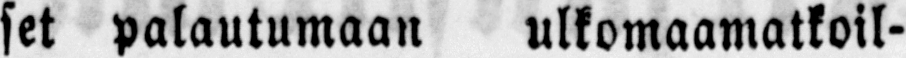set palautumaan ulkomaamatkoil-
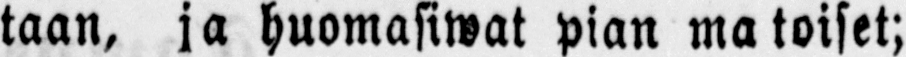taan, ja huomasiwat pian matoiset;
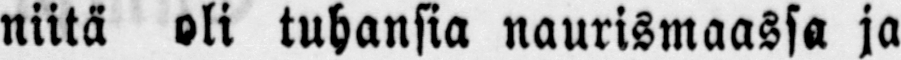niitä oli tuhansia naurismaassa ja
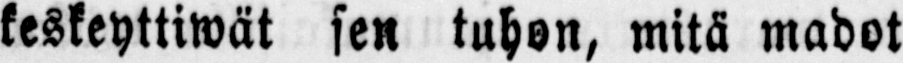keskeyttiwät sen tuhon, mitä madot
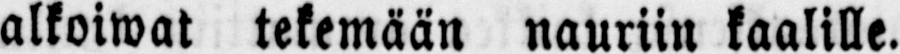alkoiwat tekemään nauriin kaalille.
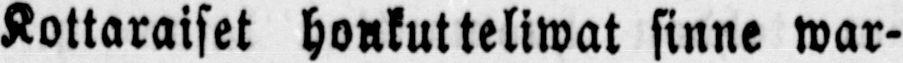Kottaraiset houkutteliwat sinne war-
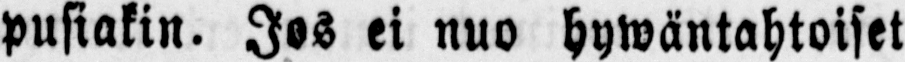pusiakin. Jos ei nuo hywäntahtoiset
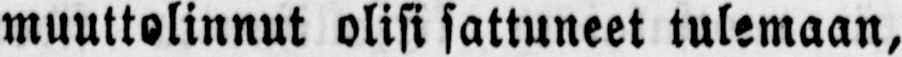muuttolinnut olisi sattuneet tulemaan,
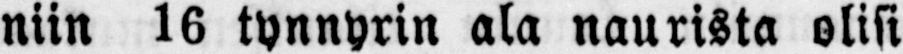niin 16 tynnyrin ala naurista olisi
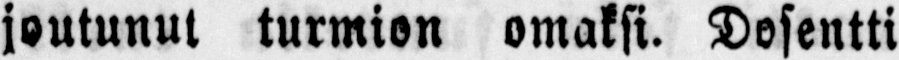joutunut turmion omaksi. Dosentti
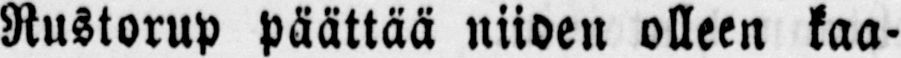Rustorup päättää niiden olleen kaa-
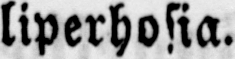liperhosia.
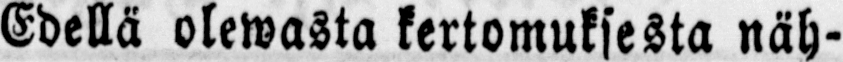Edellä olewasta kertomuksesta näh-
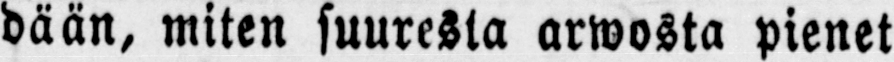dään, miten suuresta arwosta pienet
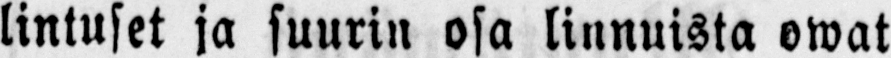lintuset ja suurin osa linnuista owat
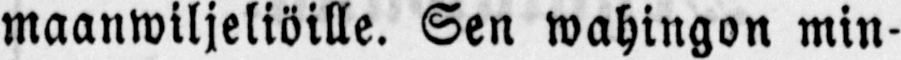maanwiljeliöille. Sen wahingon min-
